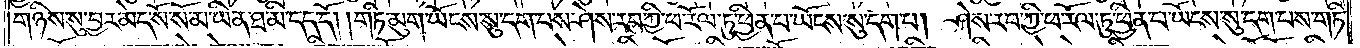གཉིས་སུ་བྱར་མེད་སོ་སོ་མ་ཡིན་ཐ་མི་དད་དོ། །གཏི་མུག་ཡོངས་སུ་དག་པས་ཤེས་རབ་ཀྱི་ཕ་རོལ་ཏུ་ཕྱིན་པ་ཡོངས་སུ་དག་པ། ཤེས་རབ་ཀྱི་ཕ་རོལ་ཏུ་ཕྱིན་པ་ཡོངས་སུ་དག་པས་གཏི་
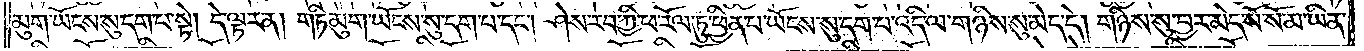མུག་ཡོངས་སུ་དག་པ་སྟེ། དེ་ལྟར་ན། གཏི་མུག་ཡོངས་སུ་དག་པ་དང༌། ཤེས་རབ་ཀྱི་ཕ་རོལ་ཏུ་ཕྱིན་པ་ཡོངས་སུ་དག་པ་འདི་ལ་གཉིས་སུ་མེད་དེ། གཉིས་སུ་བྱར་མེད་སོ་སོ་མ་ཡིན་
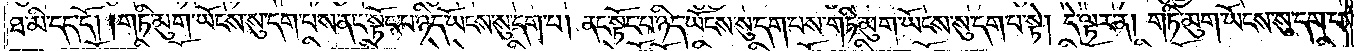ཐ་མི་དད་དོ། །གཏི་མུག་ཡོངས་སུ་དག་པས་ནང་སྟོང་པ་ཉིད་ཡོངས་སུ་དག་པ། ནང་སྟོང་པ་ཉིད་ཡོངས་སུ་དག་པས་གཏི་མུག་ཡོངས་སུ་དག་པ་སྟེ། དེ་ལྟར་ན། གཏི་མུག་ཡོངས་སུ་དག་པ་
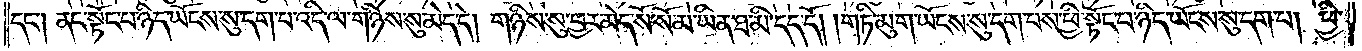དང༌། ནང་སྟོང་པ་ཉིད་ཡོངས་སུ་དག་པ་འདི་ལ་གཉིས་སུ་མེད་དེ། གཉིས་སུ་བྱར་མེད་སོ་སོ་མ་ཡིན་ཐ་མི་དད་དོ། །གཏི་མུག་ཡོངས་སུ་དག་པས་ཕྱི་སྟོང་པ་ཉིད་ཡོངས་སུ་དག་པ། ཕྱི་
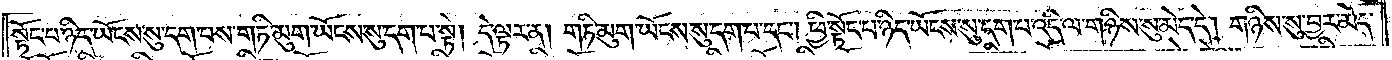སྟོང་པ་ཉིད་ཡོངས་སུ་དག་པས་གཏི་མུག་ཡོངས་སུ་དག་པ་སྟེ། དེ་ལྟར་ན། གཏི་མུག་ཡོངས་སུ་དག་པ་དང༌། ཕྱི་སྟོང་པ་ཉིད་ཡོངས་སུ་དག་པ་འདི་ལ་གཉིས་སུ་མེད་དེ། གཉིས་བྱར་མེད་
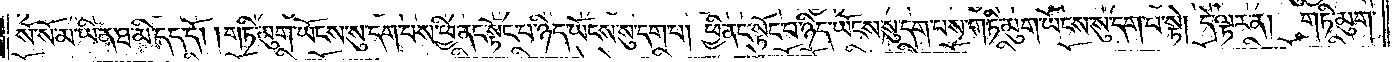སོ་སོ་མ་ཡིན་ཐ་མི་དད་དོ། །གཏི་མུག་ཡོངས་སུ་དག་པས་ཕྱི་ནང་སྟོང་པ་ཉིད་ཡོངས་སུ་དག་པ། ཕྱི་ནང་སྟོང་པ་ཉིད་ཡོངས་སུ་དག་པས་གཏི་མུག་ཡོངས་སུ་དག་པ་སྟེ། དེ་ལྟར་ན། གཏི་མུག་
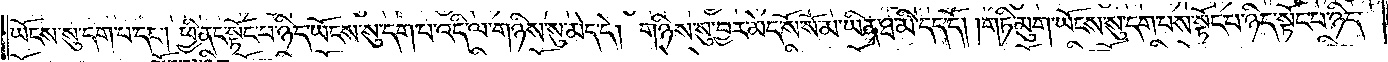ཡོངས་སུ་དག་པ་དང༌། ཕྱི་ནང་སྟོང་པ་ཉིད་ཡོངས་སུ་དག་པ་འདི་ལ་གཉིས་སུ་མེད་དེ། གཉིས་སུ་བྱར་མེད་སོ་སོ་མ་ཡིན་ཐ་མི་དད་དོ། །གཏི་མུག་ཡོངས་སུ་དག་པས་སྟོང་པ་ཉིད་སྟོང་པ་ཉིད་
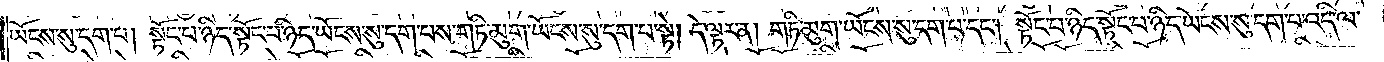ཡོངས་སུ་དག་པ། སྟོང་པ་ཉིད་སྟོང་པ་ཉིད་ཡོངས་སུ་དག་པས་གཏི་མུག་ཡོངས་སུ་དག་པ་སྟེ། དེ་ལྟར་ན། གཏི་མུག་ཡོངས་སུ་དག་པ་དང༌། སྟོང་པ་ཉིད་སྟོང་པ་ཉིད་ཡོངས་སུ་དག་པ་འདི་ལ་
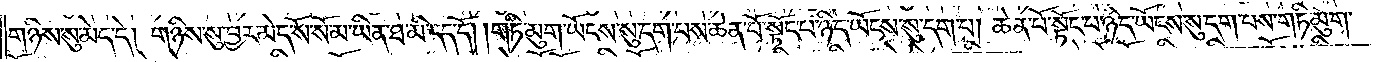གཉིས་སུ་མེད་དེ། གཉིས་སུ་བྱར་མེད་སོ་སོ་མ་ཡིན་ཐ་མི་དད་དོ། །གཏི་མུག་ཡོངས་སུ་དག་པས་ཆེན་པོ་སྟོང་པ་ཉིད་ཡོངས་སུ་དག་པ། ཆེན་པོ་སྟོང་པ་ཉིད་ཡོངས་སུ་དག་པས་གཏི་མུག་
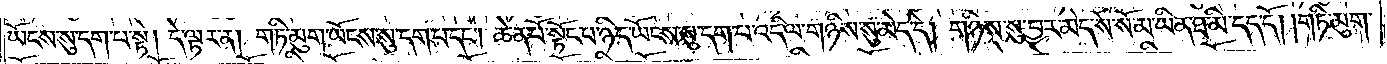ཡོངས་སུ་དག་པ་སྟེ། དེ་ལྟར་ན། གཏི་མུག་ཡོངས་སུ་དག་པ་དང༌། ཆེན་པོ་སྟོང་པ་ཉིད་ཡོངས་སུ་དག་པ་འདི་ལ་གཉིས་སུ་མེད་དེ། གཉིས་སུ་བྱར་མེད་སོ་སོ་མ་ཡིན་ཐ་མི་དད་དོ། །གཏི་མུག་
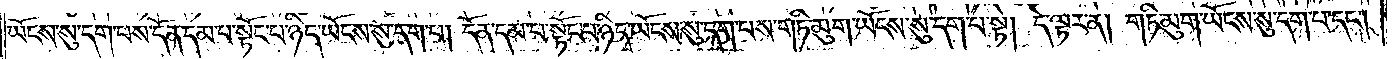ཡོངས་སུ་དག་པས་དོན་དམ་པ་སྟོང་པ་ཉིད་ཡོངས་སུ་དག་པ། དོན་དམ་པ་སྟོང་པ་ཉིད་ཡོངས་སུ་དག་པས་གཏི་མུག་ཡོངས་སུ་དག་པ་སྟེ། དེ་ལྟར་ན། གཏི་མུག་ཡོངས་སུ་དག་པ་དང༌།
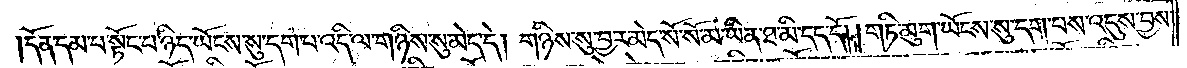དོན་དམ་པ་སྟོང་པ་ཉིད་ཡོངས་སུ་དག་པ་འདི་ལ་གཉིས་སུ་མེད་དེ། གཉིས་སུ་བྱར་མེད་སོ་སོ་མ་ཡིན་ཐ་མི་དད་དོ། །གཏི་མུག་ཡོངས་སུ་དག་པས་འདུས་བྱས་
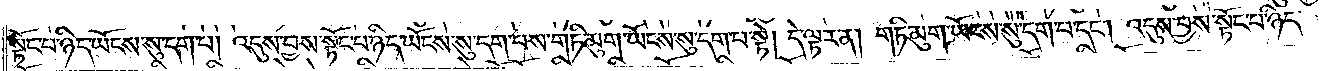སྟོང་པ་ཉིད་ཡོངས་སུ་དག་པ། འདུས་བྱས་སྟོང་པ་ཉིད་ཡོངས་སུ་དག་པས་གཏི་མུག་ཡོངས་སུ་དག་པ་སྟེ། དེ་ལྟར་ན། གཏི་མུག་ཡོངས་སུ་དག་པ་དང༌། འདུས་བྱས་སྟོང་པ་ཉིད་
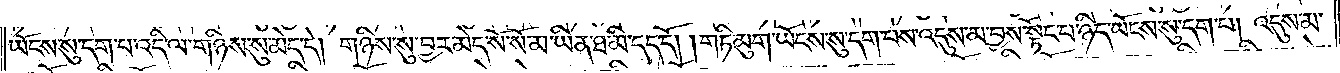ཡོངས་སུ་དག་པ་འདི་ལ་གཉིས་སུ་མེད་དེ། གཉིས་སུ་བྱར་མེད་སོ་སོ་མ་ཡིན་ཐ་མི་དད་དོ། །གཏི་མུག་ཡོངས་སུ་དག་པས་འདུས་མ་བྱས་སྟོང་པ་ཉིད་ཡོངས་སུ་དག་པ། འདུས་མ་
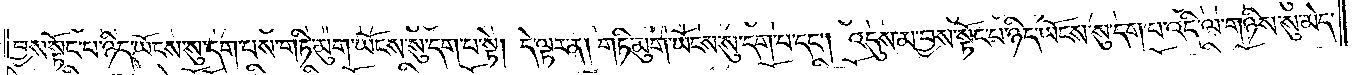བྱས་སྟོང་པ་ཉིད་ཡོངས་སུ་དག་པས་གཏི་མུག་ཡོངས་སུ་དག་པ་སྟེ། དེ་ལྟར་ན། གཏི་མུག་ཡོངས་སུ་དག་པ་དང༌། འདུས་མ་བྱས་སྟོང་པ་ཉིད་ཡོངས་སུ་དག་པ་འདི་ལ་གཉིས་སུ་མེད་
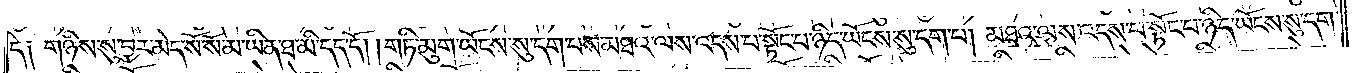དེ༑ གཉིས་སུ་བྱར་མེད་སོ་སོ་མ་ཡིན་ཐ་མི་དད་དོ། །གཏི་མུག་ཡོངས་སུ་དག་པས་མཐའ་ལས་འདས་པ་སྟོང་པ་ཉིད་ཡོངས་སུ་དག་པ། མཐའ་ལས་འདས་པ་སྟོང་པ་ཉིད་ཡོངས་སུ་དག་
